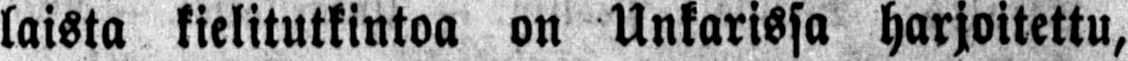laista kielitutkintoa on Unkarissa harjoitettu,
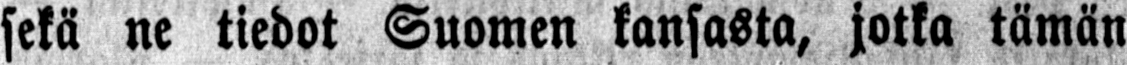sekä ne tiedot Suomen kansasta, jotka tämän
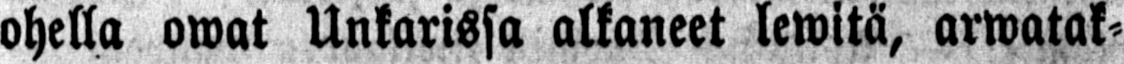ohella owat Unkarissa alkaneet lewitä, arwatak-
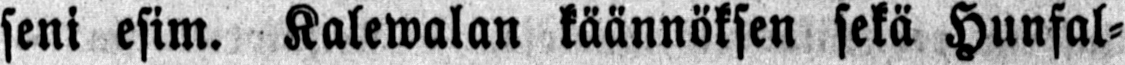seni esim. Kalewalan käännöksen sekä Hunfal-
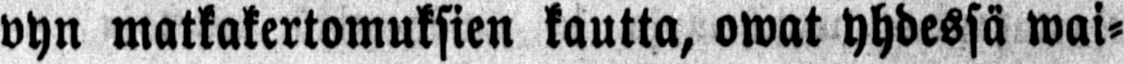vyn matkakertomuksien kautta, owat yhdessä wai-
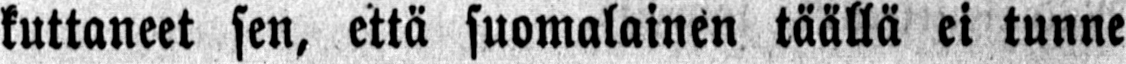kuttaneet sen, että suomalainen täällä ei tunne
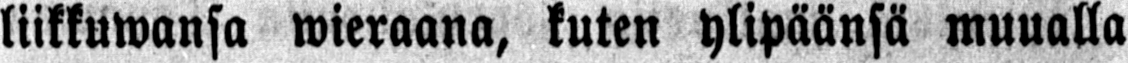liikkuwansa wieraana, kuten ylipäänsä muualla
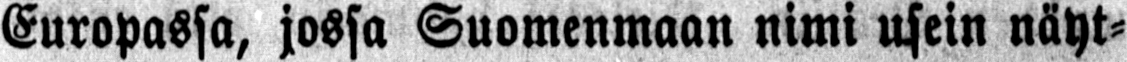Europassa, jossa Suomenmaan nimi usein näyt-
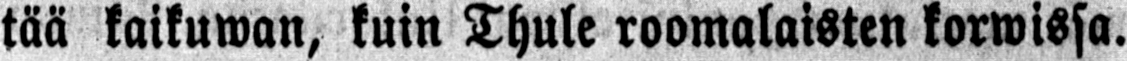tää kaikuwan, kuin Thule roomalaisten korwissa.
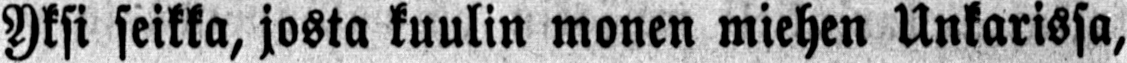Yksi seikka, josta kuulin monen miehen Unkarissa,
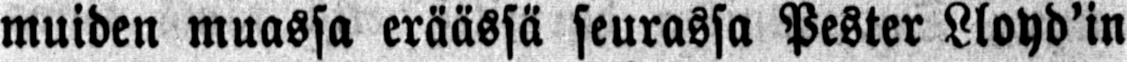muiden muassa eräässä seurassa Pester Lloyd'in
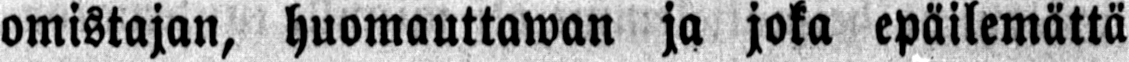omistajan, huomauttawan ja joka epäilemättä
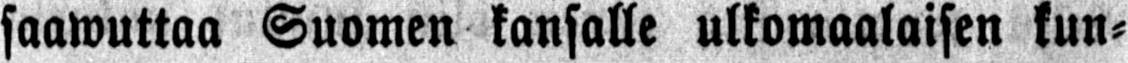saawuttaa Suomen kansalle ulkomaalaisen kun-
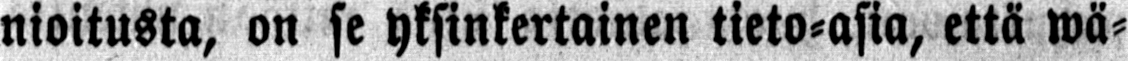nioitusta, on se yksinkertainen tieto-asia, että wä-
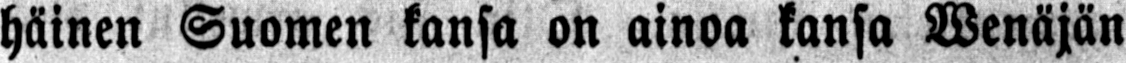häinen Suomen kansa on ainoa kansa Wenäjän
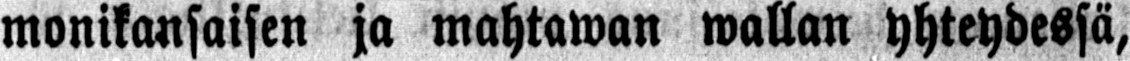monikansaisen ja mahtawan wallan yhteydessä,
